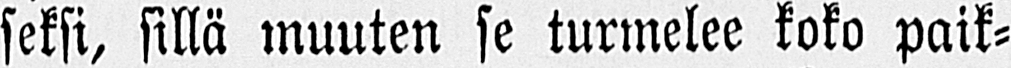seksi, sillä muuten se turmelee koko paik-
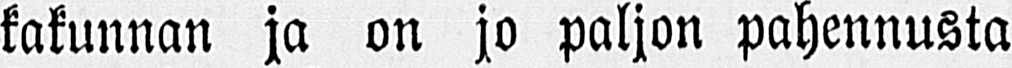kakunnan ja on jo paljon pahennusta
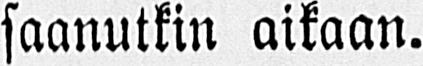saanutkin aikaan.
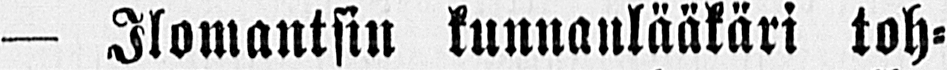— Ilomantsin kunnanlääkäri toh-
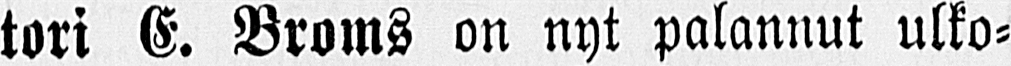tori E. Broms on nyt palannut ulko-
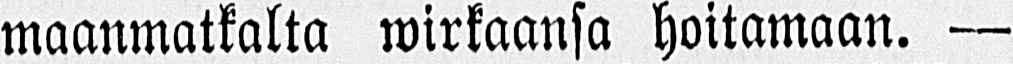maanmatkalta wirkaansa hoitamaan. —
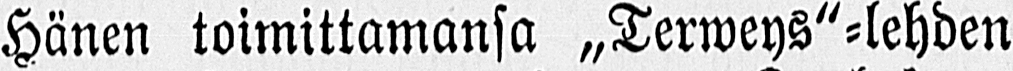Hänen toimittamansa „Terweys"-lehden
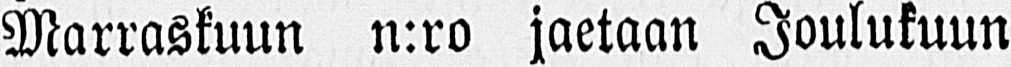Marraskuun n:ro jaetaan Joulukuun
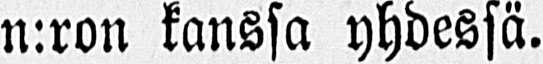n:ron kanssa yhdessä.
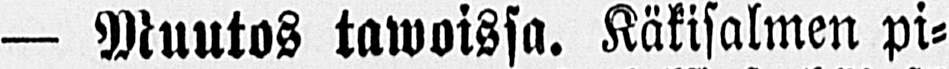— Muutos tawoissa. Käkisalmen pi-
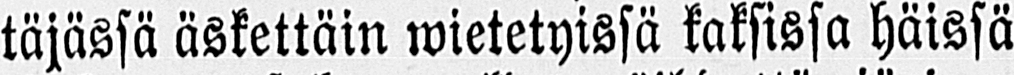täjässä äskettäin wietetyissä kaksissa häissä
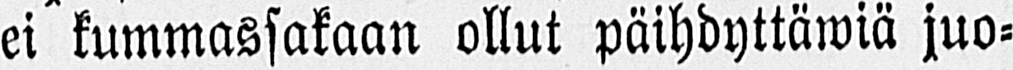ei kummassakaan ollut päihdyttäwiä juo-
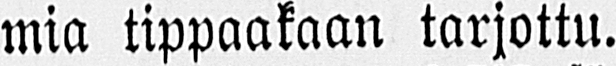mia tippaakaan tarjottu.
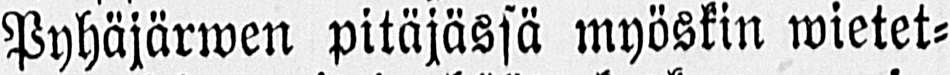Pyhäjärwen pitäjässä myöskin wietet-
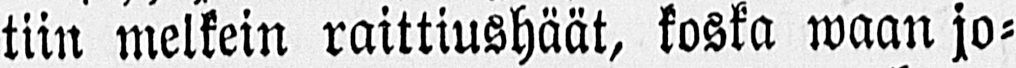tiin melkein raittiushäät, koska waan jo-
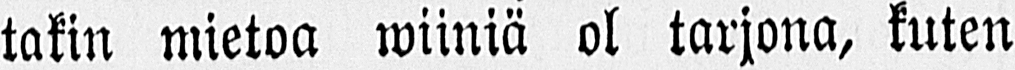takin mietoa wiiniä ol tarjona, kuten
